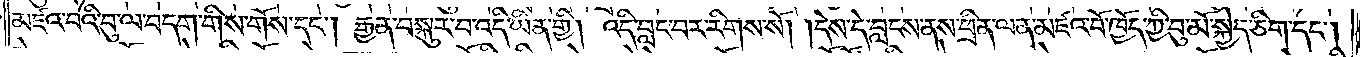མཛའ་བའི་བུ་ལ་བདག་གིས་གོས་དང༌། རྒྱན་བསྐུར་བ་འདི་ཡིན་གྱི། འདི་བླང་བར་རིགས་སོ། །དེས་དེ་བླངས་ནས་ཕྲིན་ལན་མཛའ་བོ་ཁྱོད་ཀྱི་བུ་མོ་སྐྱེད་ཅིག་དང༌།
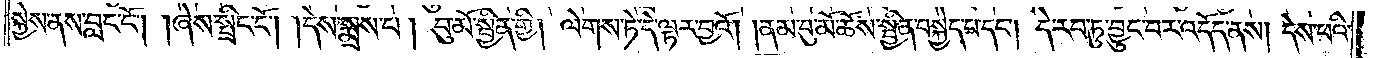སྐྱེས་ནས་བླང་ངོ༌། །ཞེས་སྤྲིང་ངོ༌། །དེས་སྨྲས་པ། བུ་མོ་སྦྱིན་གྱི། ལེགས་ཏེ་དེ་ལྟར་བྱའོ། །ནམ་བུ་མོ་ཆོས་སྦྱིན་བསྐྱེད་པ་དང༌། དེ་རབ་ཏུ་བྱུང་བར་འདོད་ནས། དེས་ཕའི་
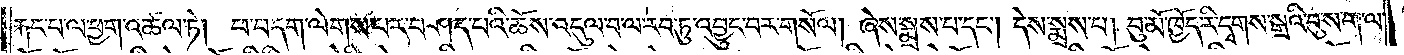རྐང་པ་ལ་ཕྱག་འཚལ་ཏེ། ཕ་བདག་ལེགས་པར་བཤད་པའི་ཆོས་འདུལ་བ་ལ་རབ་ཏུ་འབྱུང་བར་གསོལ། ཞེས་སྨྲས་པ་དང༌། དེས་སྨྲས་པ། བུ་མོ་ཁྱོད་རི་དྭགས་སྒྲའི་བུ་ས་ག་ལ་
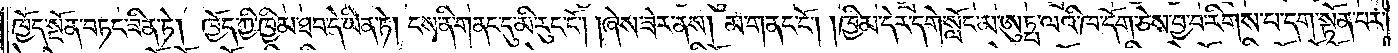ཁྱོད་སྔོན་བཏང་ཟིན་ཏེ། ཁྱོད་ཀྱི་ཁྱིམ་ཐབ་དེ་ཡིན་ཏེ། ངས་ནི་གནང་དུ་མི་རུང་ངོ༌། །ཞེས་ཟེར་ནས། མ་གནང་ངོ༌། །ཁྱིམ་དེར་དགེ་སློང་མ་ཨུཏྤ་ལའི་ཁ་དོག་ཅེས་བྱ་བ་རིགས་པ་དག་སྟོན་པར་
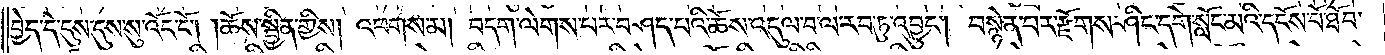བྱེད་དེ་དུས་དུས་སུ་འོང་ངོ༌། །ཆོས་སྦྱིན་གྱིས། འཕགས་མ། བདག་ལེགས་པར་བཤད་པའི་ཆོས་འདུལ་བ་ལ་རབ་ཏུ་འབྱུང༌། བསྙེན་པར་རྫོགས་ཤིང་དགེ་སློང་མའི་དངོས་པོ་ཐོབ་
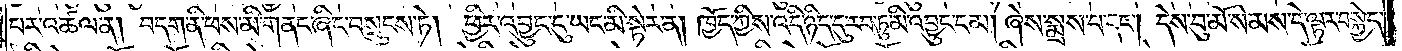པར་འཚལ་ན། བདག་ནི་ཕས་མི་གནང་ཞིང་བསྲུངས་ཏེ། ཕྱིར་འབྱུང་དུ་ཡང་མི་སྟེར་ན། ཁྱོད་ཀྱིས་འདི་ཉིད་དུ་རབ་ཏུ་མི་འབྱུང་ངམ། ཞེས་སྨྲས་པ་དང༌། དེས་བུ་མོ་སེམས་དེ་ལྟར་བསྐྱེད་
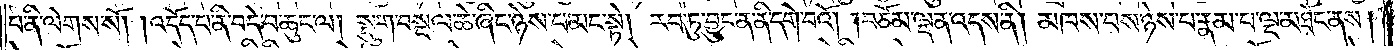པ་ནི་ལེགས་སོ། །འདོད་པ་ནི་བདེ་བ་ཆུང་ལ། སྡུག་བསྔལ་ཆེ་ཞིང་ཉེས་པ་མང་སྟེ། རབ་ཏུ་བྱུང་ན་ནི་དགེ་བའོ། །བཅོམ་ལྡན་འདས་ནི། མཁས་པས་ཉེས་པ་རྣམ་པ་ལྔ་མཐོང་ནས།
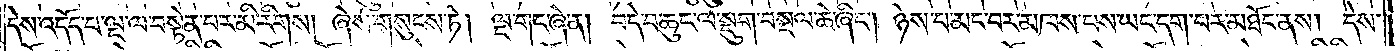དེས་འདོད་པ་ལྔ་ལ་བསྟེན་པར་མི་རིགས། ཞེས་གསུངས་ཏེ། ལྔ་གང་ཞེ་ན། བདེ་བ་ཆུང་ལ་སྡུག་བསྔལ་ཆེ་ཞིང༌། ཉེས་པ་མང་བར་མཁས་པས་ཡང་དག་པར་མཐོང་ནས། དེས་
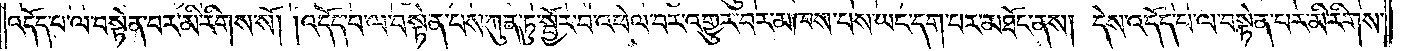འདོད་པ་ལ་བསྟེན་པར་མི་རིགས་སོ། །འདོད་པ་ལ་བསྟེན་པས་ཀུན་ཏུ་སྦྱོར་བ་འཕེལ་བར་འགྱུར་བར་མཁས་པས་ཡང་དག་པར་མཐོང་ནས། དེས་འདོད་པ་ལ་བསྟེན་པར་མི་རིགས་
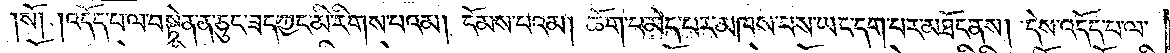སོ། །འདོད་པ་ལ་བསྟེན་ན་ཅུང་ཟད་ཀྱང་མི་རིགས་པའམ། ངོམས་པའམ། ཆོག་པ་མེད་པར་མཁས་པས་ཡང་དག་པར་མཐོང་ནས། དེས་འདོད་པ་ལ་
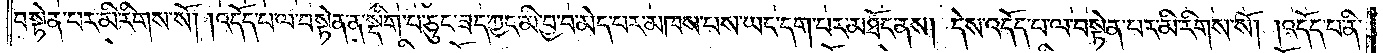བསྟེན་པར་མི་རིགས་སོ། །འདོད་པ་ལ་བསྟེན་ན་སྡིག་པ་ཅུང་ཟད་ཀྱང་མི་བྱ་བ་མེད་པར་མཁས་པས་ཡང་དག་པར་མཐོང་ནས། དེས་འདོད་པ་ལ་བསྟེན་པར་མི་རིགས་སོ། །འདོད་པ་ནི་
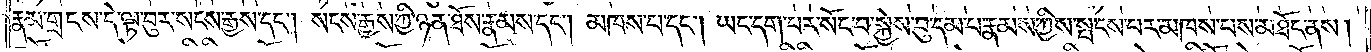རྣམ་གྲངས་དེ་ལྟ་བུར་སངས་རྒྱས་དང༌། སངས་རྒྱས་ཀྱི་ཉན་ཐོས་རྣམས་དང༌། མཁས་པ་དང༌། ཡང་དག་པར་སོང་བ་སྐྱེས་བུ་དམ་པ་རྣམས་ཀྱིས་སྤངས་པར་མཁས་པས་མཐོང་ནས།
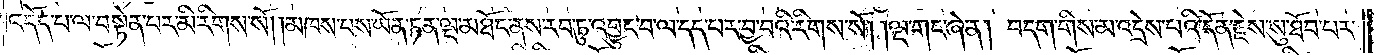འདོད་པ་ལ་བསྟེན་པར་མི་རིགས་སོ། །མཁས་པས་ཡོན་ཏན་ལྔ་མཐོང་ནས་རབ་ཏུ་འབྱུང་བ་ལ་དད་པར་བྱ་བའི་རིགས་སོ། །ལྔ་གང་ཞེ་ན། བདག་གིས་མ་འདྲེས་པའི་དོན་རྗེས་སུ་ཐོབ་པར་
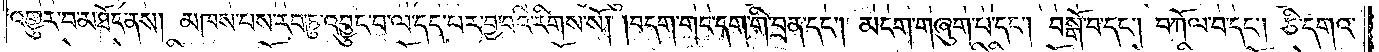འགྱུར་བ་མཐོང་ནས། མཁས་པས་རབ་ཏུ་འབྱུང་བ་ལ་དད་པར་བྱ་བའི་རིགས་སོ། །བདག་གང་དག་གི་བྲན་དང༌། མངག་གཞུག་པ་དང༌། བསྒོ་བ་དང༌། བཀོལ་བ་དང༌། ཅི་དགའ་
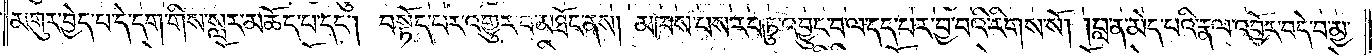མགུར་བྱེད་པ་དེ་དག་གིས་སླར་མཆོད་པ་དང༌། བསྟོད་པར་འགྱུར་བ་མཐོང་ནས། མཁས་པས་རབ་ཏུ་འབྱུང་བ་ལ་དད་པར་བྱ་བའི་རིགས་སོ། །བླ་ན་མེད་པའི་རྣལ་འབྱོར་བདེ་བ་མྱ་
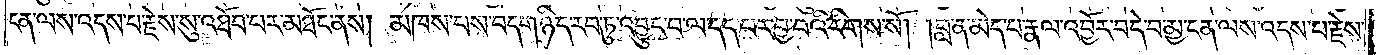ངན་ལས་འདས་པ་རྗེས་སུ་འཐོབ་པར་མཐོང་ནས། མཁས་པས་བདག་ཉིད་རབ་ཏུ་འབྱུང་བ་ལ་དད་པར་བྱ་བའི་རིགས་སོ། །བླ་ན་མེད་པ་རྣལ་འབྱོར་བདེ་བ་མྱ་ངན་ལས་འདས་པ་རྗེས་
